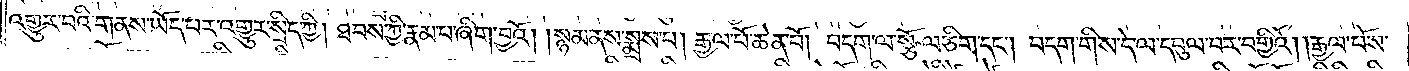འགྱུར་བའི་གནས་ཡོད་པར་འགྱུར་སྲིད་ཀྱི། ཐབས་ཀྱི་རྣམ་པ་ཞིག་བྱའོ། །སྙམ་ནས་སྨྲས་པ། རྒྱལ་པོ་ཆེན་པོ། བདག་ལ་སྩོལ་ཅིག་དང༌། བདག་གིས་དེ་ལ་དབུལ་བར་བགྱིའོ། །རྒྱལ་པོས་
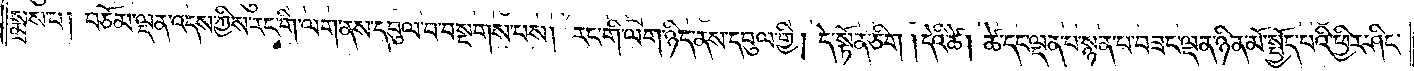སྨྲས་པ། བཅོམ་ལྡན་འདས་ཀྱིས་རང་གི་ལག་ནས་དབུལ་བ་བསྔགས་པས། རང་གི་ལག་ཉིད་ནས་དབུལ་གྱི། དེ་སྟོན་ཅིག །དེའི་ཚེ། ཚེ་དང་ལྡན་པ་སྙན་པ་བཟང་ལྡན་ཉིན་མོ་སྤྱོད་པའི་ཕྱིར་ཤིང་
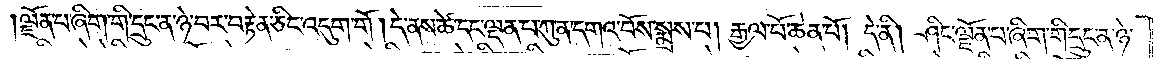ལྗོན་པ་ཞིག་གི་དྲུང་ན་ཉེ་བར་བརྟེན་ཅིང་འདུག་གོ །དེ་ནས་ཚེ་དང་ལྡན་པ་ཀུན་དགའ་བོས་སྨྲས་པ། རྒྱལ་པོ་ཆེན་པོ། དེ་ནི། ཤིང་ལྗོན་པ་ཞིག་གི་དྲུང་ན་ཉེ་
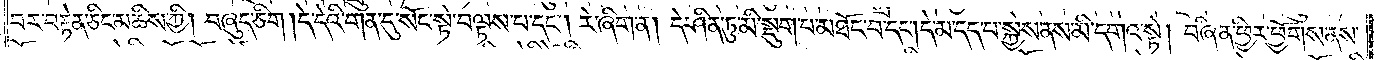བར་བརྟེན་ཅིང་མཆིས་ཀྱི། བཞུད་ཅིག །དེ་དེའི་གན་དུ་སོང་སྟེ་བལྟས་པ་དང༌། རེ་ཞིག་ན། དེ་ཤིན་ཏུ་མི་སྡུག་པ་མཐོང་བ་དང༌། དེ་མ་དད་པ་སྐྱེས་ནས་མི་དགའ་སྟེ། བཞིན་ཕྱིར་ཕྱོགས་ནས་
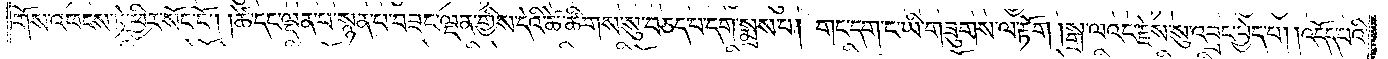གོས་འཕངས་ཏེ་ཕྱིར་སོང་ངོ༌། །ཚེ་དང་ལྡན་པ་སྙན་པ་བཟང་ལྡན་གྱིས་དེའི་ཚེ་ཚིགས་སུ་བཅད་པ་དག་སྨྲས་པ། གང་དག་ང་ཡི་གཟུགས་ལ་རྟོག །སྒྲ་ལའང་རྗེས་སུ་འབྲང་བྱེད་པ། །འདོད་པའི་
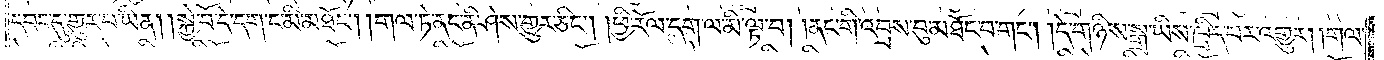དབང་དུ་གྱུར་པ་ཡིན། །སྐྱེ་བོ་དེ་དག་ང་མི་མཐོང༌། །གལ་ཏེ་ནང་ནི་ཤེས་གྱུར་ཅིང༌། །ཕྱི་རོལ་དག་ལ་མི་ལྟ་བ། །ནང་གི་འབྲས་བུ་མཐོང་བ་གང༌། །དེ་གཉིས་སྒྲ་ཡིས་ཁྲིད་པར་འགྱུར། །གལ་
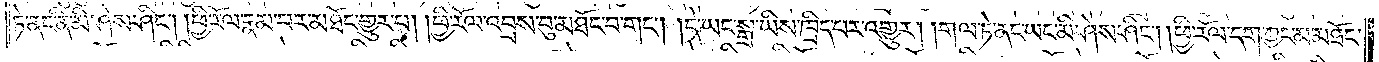ཏེ་ནང་ནི་མི་ཤེས་ཤིང༌། །ཕྱི་རོལ་རྣམ་པར་མཐོང་གྱུར་པ། །ཕྱི་རོལ་འབྲས་བུ་མཐོང་བ་གང༌། །དེ་ཡང་སྒྲ་ཡིས་ཁྲིད་པར་འགྱུར། །གལ་ཏེ་ནང་ཡང་མི་ཤེས་ཤིང༌། །ཕྱི་རོལ་དག་ཀྱང་མ་མཐོང་
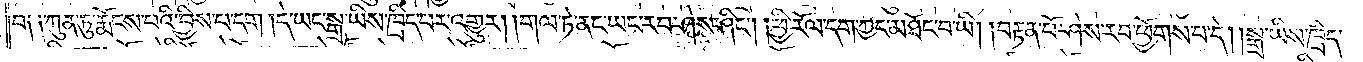བ༑ ༑ཀུན་ཏུ་རྨོངས་པའི་བྱིས་པ་དག །དེ་ཡང་སྒྲ་ཡིས་ཁྲིད་པར་འགྱུར། །གལ་ཏེ་ནང་ཡང་རབ་ཤེས་ཤིང༌། །ཕྱི་རོལ་དག་ཀྱང་མཐོང་བ་ཡི། །བརྟན་པོ་ཤེས་རབ་ཕྱོགས་པ་དེ། །སྒྲ་ཡིས་ཁྲིད་
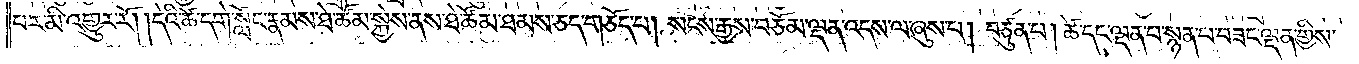པར་མི་འགྱུར་རོ། །དེའི་ཚེ་དགེ་སློང་རྣམས་ཐེ་ཚོམ་སྐྱེས་ནས་ཐེ་ཚོམ་ཐམས་ཅད་གཅོད་པ། སངས་རྒྱས་བཅོམ་ལྡན་འདས་ལ་ཞུས་པ། བཙུན་པ། ཚེ་དང་ལྡན་པ་སྙན་པ་བཟང་ལྡན་གྱིས་
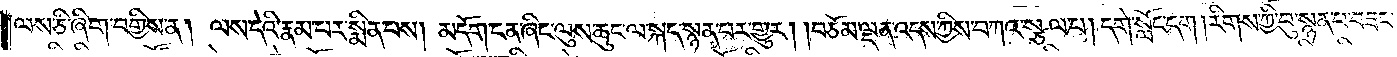ལས་ཅི་ཞིག་བགྱིས་ན། ལས་དེའི་རྣམ་པར་སྨིན་པས། མདོག་ངན་ཞིང་ལུས་ཆུང་ལ་སྐད་སྙན་པར་གྱུར། །བཅོམ་ལྡན་འདས་ཀྱིས་བཀའ་སྩལ་པ། དགེ་སློང་དག །རིགས་ཀྱི་བུ་སྙན་པ་བཟང་
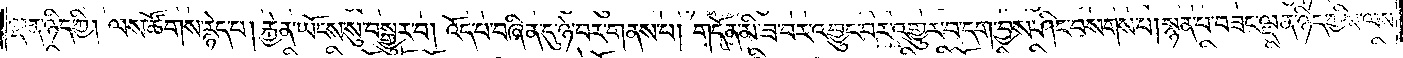ལྡན་ཉིད་ཀྱི། ལས་ཚོགས་རྙེད་པ། རྐྱེན་ཡོངས་སུ་བསྒྱུར་བ། འོད་པ་བཞིན་དུ་ཉེ་བར་གནས་པ། གདོན་མི་ཟ་བར་འབྱུང་བར་འགྱུར་བ་དག་བྱས་ཤིང་བསགས་པ། སྙན་པ་བཟང་ལྡན་ཉིད་ཀྱིས་ལས་
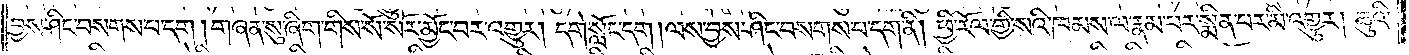བྱས་ཤིང་བསགས་པ་དག །གཞན་སུ་ཞིག་གིས་སོ་སོར་མྱོང་བར་འགྱུར། དགེ་སློང་དག །ལས་བྱས་ཤིང་བསགས་པ་དག་ནི། ཕྱི་རོལ་གྱི་སའི་ཁམས་ལ་རྣམ་པར་སྨིན་པར་མི་འགྱུར། ཆུའི་
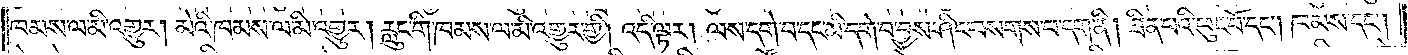ཁམས་ལ་མི་འགྱུར། མེའི་ཁམས་ལ་མི་འགྱུར། རླུང་གི་ཁམས་ལ་མི་འགྱུར་གྱི། འདི་ལྟར། ལས་དགེ་བ་དང་མི་དགེ་བ་བྱས་ཤིང་བསགས་པ་དག་ནི། ཟིན་པའི་ཕུང་པོ་དང༌། ཁམས་དང༌།
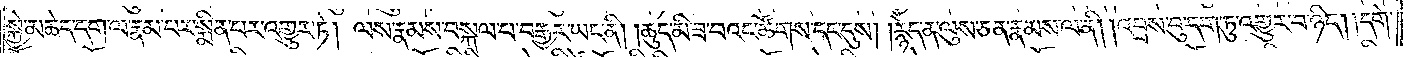སྐྱེ་མཆེད་དག་ལ་རྣམ་པར་སྨིན་པར་འགྱུར་ཏེ། ལས་རྣམས་བསྐལ་པ་བརྒྱར་ཡང་ནི། །ཆུད་མི་ཟ་བའང་ཚོགས་དང་དུས། །རྙེད་ན་ལུས་ཅན་རྣམས་ལ་ནི། །འབྲས་བུ་དག་ཏུ་འགྱུར་བ་ཉིད། །དགེ་
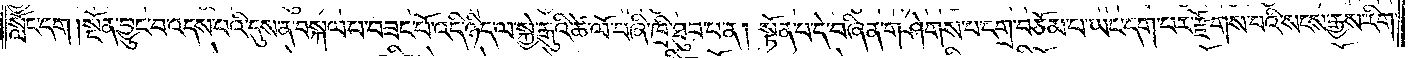སློང་དག །སྔོན་བྱུང་བ་འདས་པའི་དུས་ན་བསྐལ་པ་བཟང་པོ་འདི་ཉིད་ལ་སྐྱེ་རྒུའི་ཚེ་ལོ་བཞི་ཁྲི་ཐུབ་པ་ན། སྟོན་པ་དེ་བཞིན་གཤེགས་པ་དགྲ་བཅོམ་པ་ཡང་དག་པར་རྫོགས་པའི་སངས་རྒྱས་རིག་
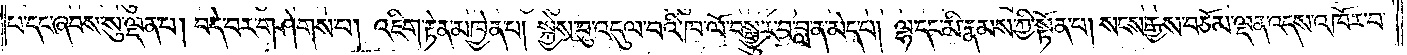པ་དང་ཞབས་སུ་ལྡན་པ། བདེ་བར་གཤེགས་པ། འཇིག་རྟེན་མཁྱེན་པ། སྐྱེས་བུ་འདུལ་བའི་ཁ་ལོ་བསྒྱུར་བ་བླ་ན་མེད་པ། ལྷ་དང་མི་རྣམས་ཀྱི་སྟོན་པ། སངས་རྒྱས་བཅོམ་ལྡན་འདས་འཁོར་བ་
